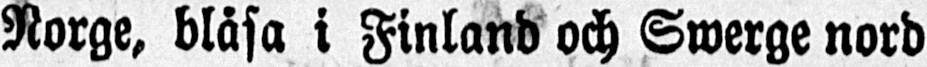Norge, blåsa i Finland och Swerge nord
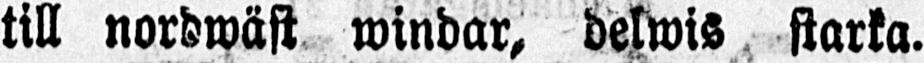till nordwäst windar, delwis starka.
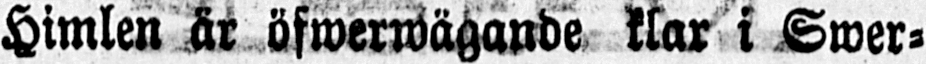Himlen är öfwerwägande klar i Swer-
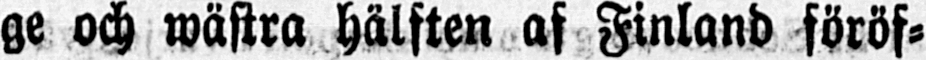ge och wästra hälften af Finland föröf-
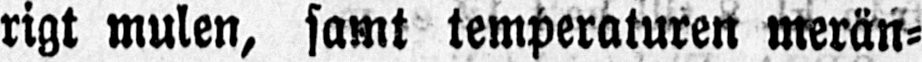rigt mulen, samt temperaturen merän-
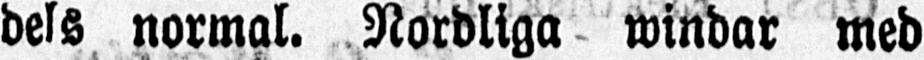dels normal. Nordliga windar med
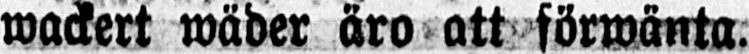wackert wäder äro att förwänta.
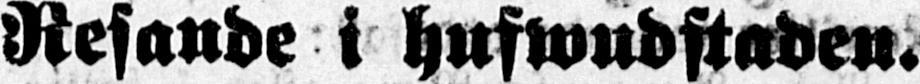Resande i hufwudstaden.
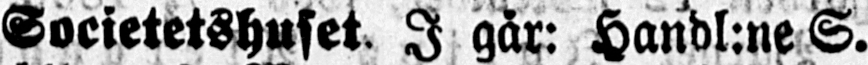Societetshuset. I går: handl:ne S.
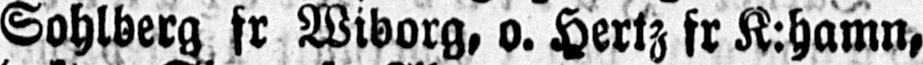Sohlberg fr Wiborg, o. Hertz fr K:hamn,
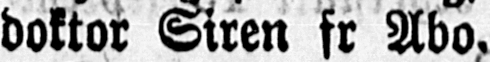doktor Siren fr Abo.
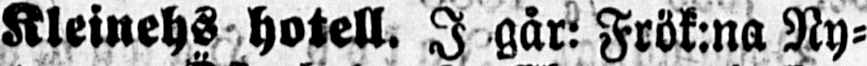Kleinehs hotell. I går: Frök:na Ny-
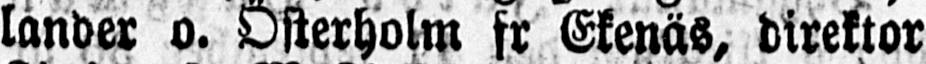lander o. Österholm fr Ekenäs, direktor
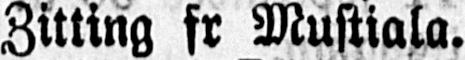Zitting fr Mustiala.
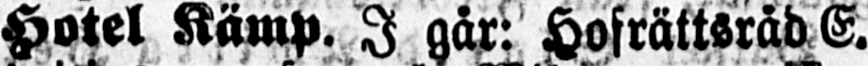Hotel Kämp. I går: Hofrättsråd E.
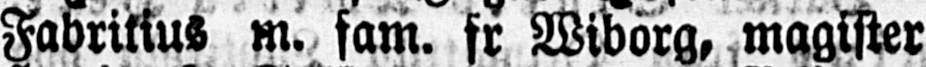Fabritius m. fam. fr Wiborg, magister
